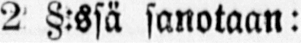2 §:ssä sanotaan:
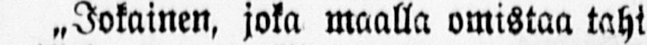„Jokainen, joka maalla omistaa tahi
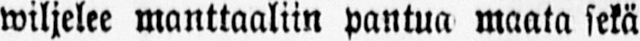wiljelee manttaaliin pantua maata sekä
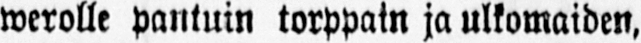werolle pantuin torppain ja ulkomaiden,
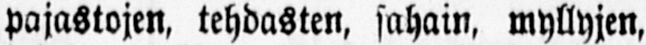pajastojen, tehdasten, sahain, myllyjen,
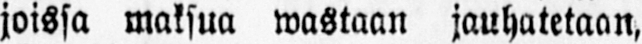joissa maksua wastaan jauhatetaan,
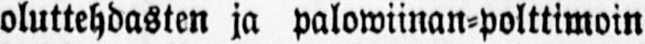oluttehdasten ja palowiinan-polttimoin
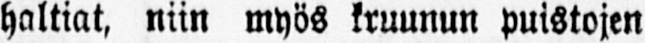haltiat, niin myös kruunun puistojen
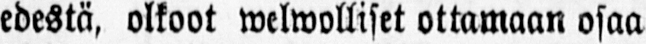edestä, olkoot welwolliset ottamaan osaa
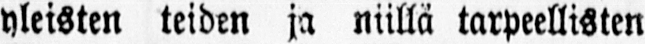yleisten teiden ja niillä tarpeellisten
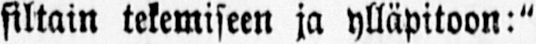siltain tekemiseen ja ylläpitoon:"
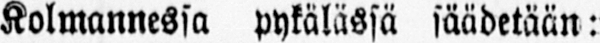Kolmannessa pykälässä säädetään:
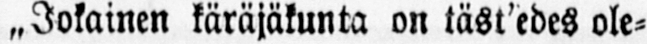„Jokainen käräjäkunta on täst'edes ole-
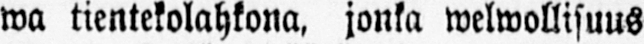wa tientekolahkona, jonka welwollisuus
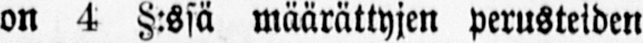on 4 §:ssä määrättyjen perusteiden
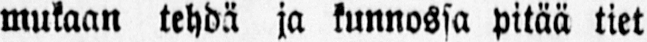mukaan tehdä ja kunnossa pitää tiet
